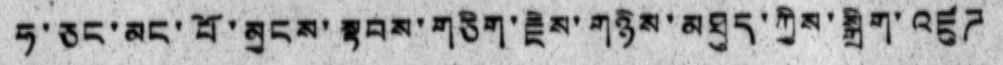ཧ་ཅང་མང་པོ་མྱངས་སྟབས་གཅིག་རྗེས་གཉིས་མཐུད་ཀྱིས་སྒྲིག་འཛུཌ
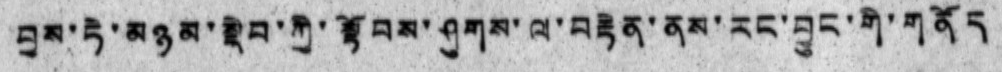བྱས་ཏེ་མཉམ་སྡེབ་ཀྱི་སྟོབས་ཤུགས་ལ་བརྟེན་ནས་རང་བྱུང་གི་གནོད
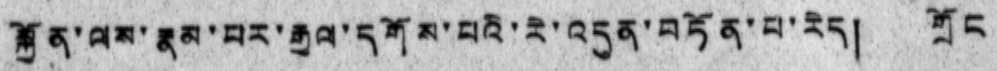སྐྱོན་ལས་རྣམ་པར་རྒྱལ་དགོས་པའི་རེ་འདུན་བཏོན་པ་རེད། གྲོང
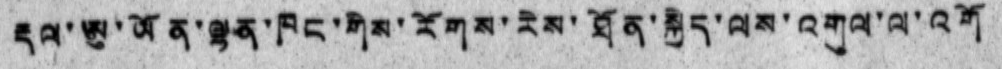རྡལ་ཨུ་ཡོན་ལྷན་ཁང་གིས་རོགས་རེས་ཐོན་སྐྱེད་ལས་འགུལ་ལ་འགོ
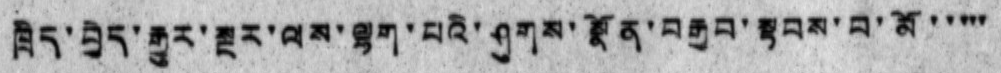ཁྲིད་བྱེད་རྒྱུར་སྡར་ལས་ལྷག་པའི་ཤུགས་སྣོན་བརྒྱབ་སྟབས་བ་མོ་་་་་
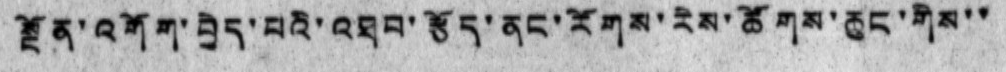སྔོན་འགོག་བྱེད་པའི་འཐབ་རྩོད་ནང་རོགས་རེས་ཚོགས་ཆུང་གིས་་
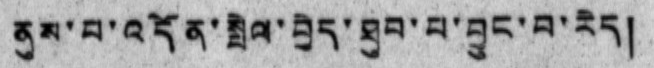ནུས་པ་འདོན་སྤེལ་བྱེད་ཐུབ་པ་བྱུང་བ་རེད༎
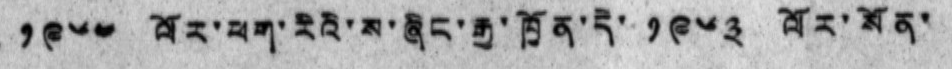༡༩༦༤ ལོར་ཕག་རིའི་ས་ཞིང་རྒྱ་ཁྱོན་དེ་ ༡༩༦༣ ལོར་སོན་
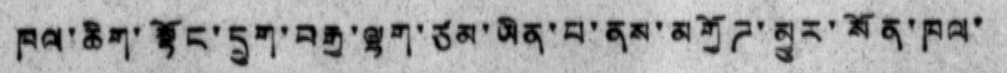ཁལ་ཆིག་སྟོང་དྲུག་བརྒྱ་ལྷག་ཙམ་ཡིན་པ་ནས་མགྱོཌ་མྱུར་སོན་ཁལ་
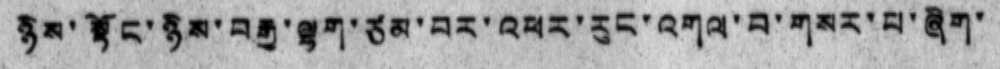ཉིས་སྟོང་ཉིས་བརྒྱ་ལྷག་ཙམ་བར་འཕར་རུང་འགལ་བ་གསར་པ་ཞིག་
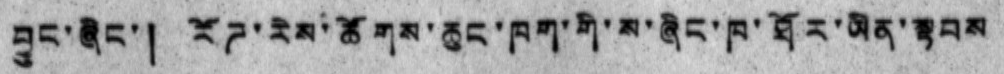བྱུང་ཞིང་། རོཌ་རེས་ཚོགས་ཆུང་ཁག་གི་ས་ཞིང་ཁ་ཐོར་ཡིན་སྟབས
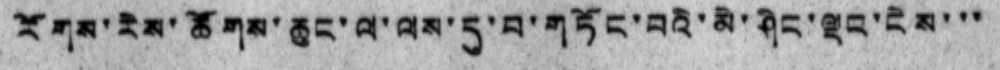རོགས་རེས་ཚོགས་ཆུང་ལ་ལས་དུ་བ་གཏོང་བའི་མེ་ཤིང་ལྡང་ངེས་་་
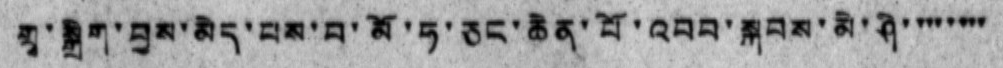གྲྭ་སྒྲིག་བྱས་མེད་པས་བ་མོ་ཧ་ཅང་ཆེན་པོ་འབབ་སྐབས་མེ་ཤི་ ་་་་་་་
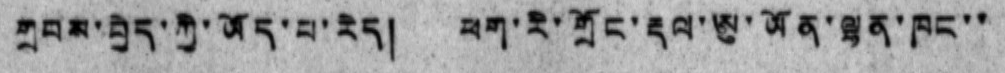གྲབས་བྱེད་ཀྱི་ཡོད་པ་རེད། ཕག་རི་གྲོང་རྡལ་ཨུ་ཡོན་ལྷན་ཁང་་
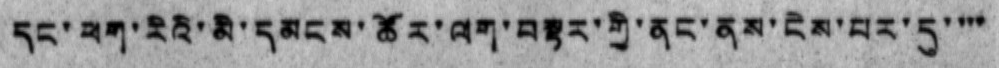དང་ཕག་རིའི་མི་དམངས་ཚོར་ལག་བསྟར་གྱི་ནང་ནས་ངེས་པར་དུ་་་་
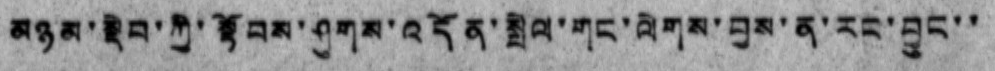མཉམ་སྡེབ་ཀྱི་སྟོབས་ཤུགས་འདོན་སྤེལ་གང་ལེགས་བྱས་ན་རང་བྱུང་་
